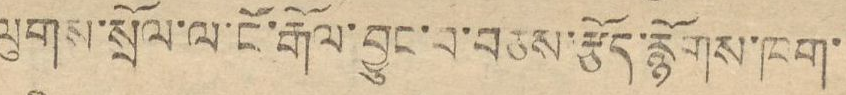ལུགས་སྲོལ་ལ་ངོ་རྒོལ་བྱུང་བ་བཅས་རྩོད་རྙོགས་ཁག་
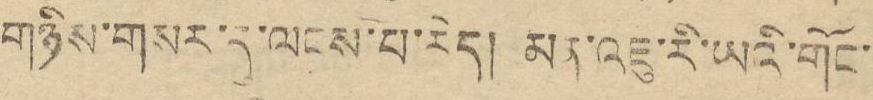གཉིས་གསར་དུ་ལངས་པ་རེད། མན་འཇུ་རི་ཡའི་གོང་
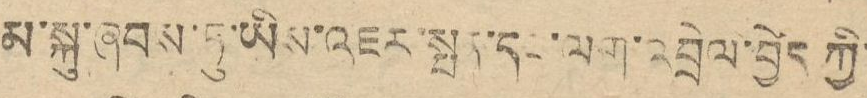མ་སྐུ་ཞབས་ཏུ་ཡིས་འཇར་སྤན་དང་ལག་འབྲེལ་བྱེད ཀྱི་
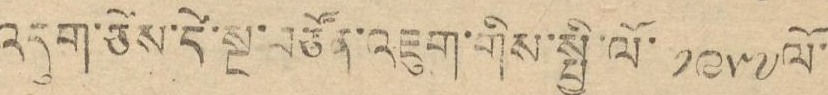འདུག་ཅེས་དེ་སྔ་བཙོན་འཇུག་གིས་སྤྱི་ལོ་ ༡༩༥༧ ལོ་
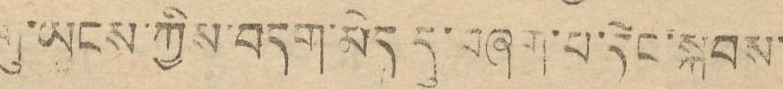གུ་ཡངས་ཀྱིས་བདག་མེད དུ་བཞག་པ་དེང་སྐབས་
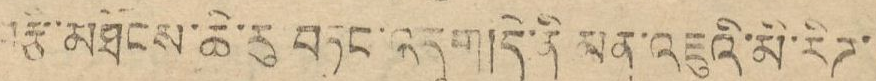བརྩི་མཐོངས་ཆེ་རུ བཏང་འདུག །དེ་ནི མན་འཇུའི་མི་རིཊ་
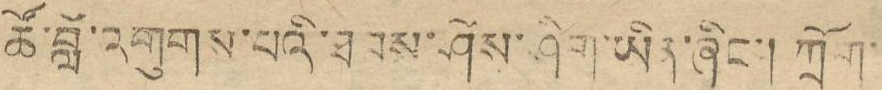ཚོ་བློ་འགུགས་པའི་ཐབས་ཤེས་ཤིག་ཡིན་ཞིང་། ཀྲོག་
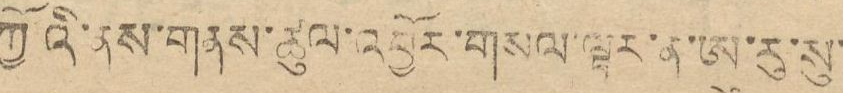ཀྱོའི་ནས་གནས་ཚུལ་འབྱོར་གསལ་ལྟར་ན་ཨུ་རུ་སུ་
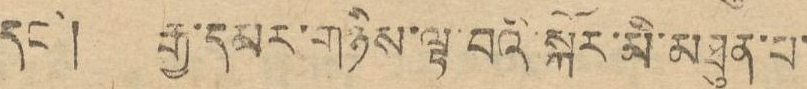དང་། རྒྱ་དམར་གཉིས་ལྟ་བའི སྐོར་མི་མཐུན་པ་
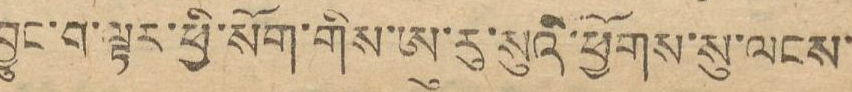བྱུང་བ་ལྟར་ཕྱི་སོག་གིས་ཨུ་རུ་སུའི་ཕྱོགས་སུ་ལངས་
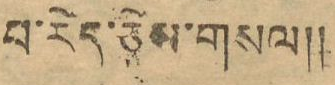པ་རེད་ཅེས་གསལ༎
